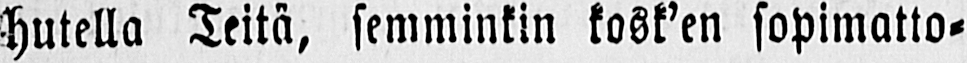hutella Teitä, semminkin kosk'en sopimatto-
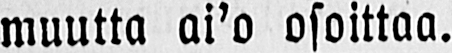muutta ai’o osoittaa.
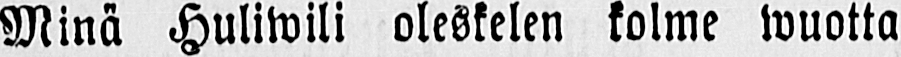Minä Huliwili oleskelen kolme wuotta
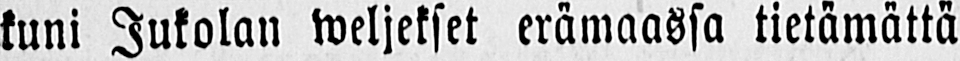kuni Jukolan weljekset erämaassa tietämättä
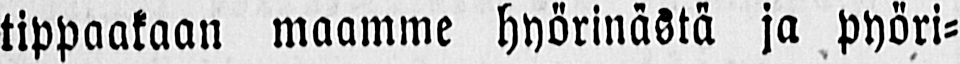tippaakaan maamme hyörinästä ja pyöri-
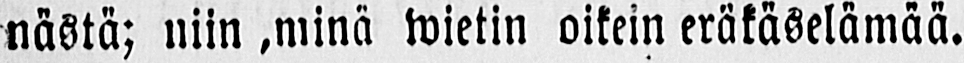nästä; niin ,minä wietin oikein eräkäselämää.
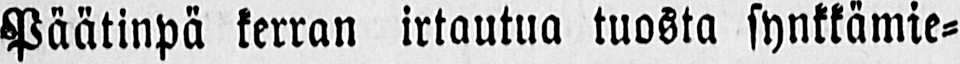Päätinpä kerran irtautua tuosta synkkämie-
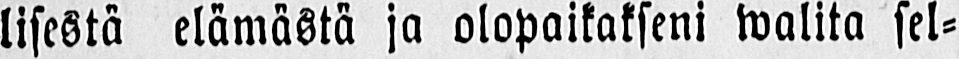lisestä elämästä ja alapaikakseni walita sel-
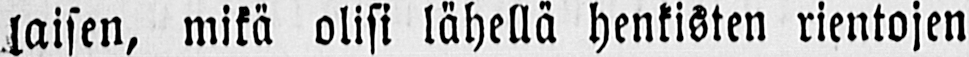laisen, mikä olisi lähellä henkisten rientojen
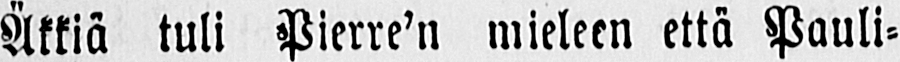Äkkiä tuli Pierre’n mieleen että Pauli-
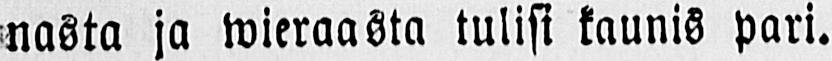nasta ja wieraasta tulisi kaunis pari.
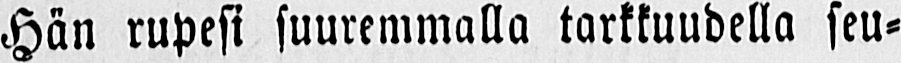Hän rupesi suuremmalla tarkkuudella seu-
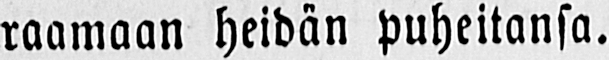raamaan heidän puheitansa.
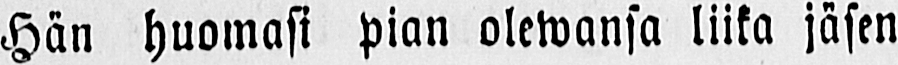Hän huomasi pian olewansa liika jäsen
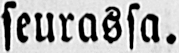seurassa.
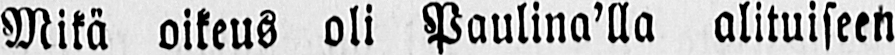Mikä oikeus oli Paulina’lla alituiseen
